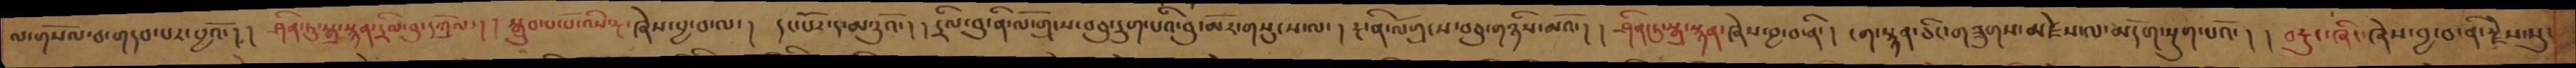ལ་གསོལ་བ་གདབ་པར་བྱའོ་། །ཤིན་ཏུ་སྒྲ་སྙན་དྲིལ་བུ་དཀྲོལ་། །སྒྲུབ་པ་པོ་འིས་རྔ་ཞེས་བྱ་བ་ལ་ ། དང་པོར་ད་མ་རུའོ་ ། །དྲིལ་བུ་ནི་ལོ་གྲངས་བཅུ་དྲུག་པའི་བུ་མོར་གསུངས་ལ་ ། རྔ་ནི་ལོགྲངས་བཅུ་གཉིས་མའོ་། །ཤིན་ཏུ་སྒྲ་སྙན་ཞེས་བྱ་བ་ནི་། ངག་སྙན་ཅིང་གཟུགས་མཛེས་ལ་མདོག་སྡུག་པའོ་། ། བརྡུང་ཞིང་ཞེས་བྱ་བ་ནི་རྗེས་སུ་
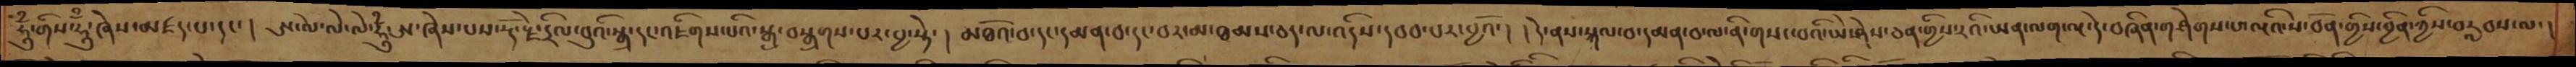ཧཱུྃ་གིས་ཧཱུྃ་ཞེས་མཛད་པ་དང་ ། ཨ་ལེ་ལེ་ལེ་ཧཱུྃ་ཨ་ཞེས་པས་རྡོ་རྗེ་དྲིལ་བུའི་སྒྲ་དང་འཇིགས་པའི་སྒྲ་བསྒྲགས་པར་བྱ་སྟེ་ ། མཐོའ་བ་དང་དམན་བ་དང་བར་མ་ཐམས་ཅད་ལ་འདིས་དབབ་པར་བྱའོ་། །དེ་ནས་སྐལ་བ་དམན་བ་ལ་ནི་གསང་བའི་ཡེ་ཤེས་ཅན་གྱིས་རའི་ཡན་ལག་ལྔ་དེ་བཞིན་གཤེགས་པ་ལྔའི་ས་བོན་གྱིས་བྱིན་གྱིས་བརླབས་ལ་།
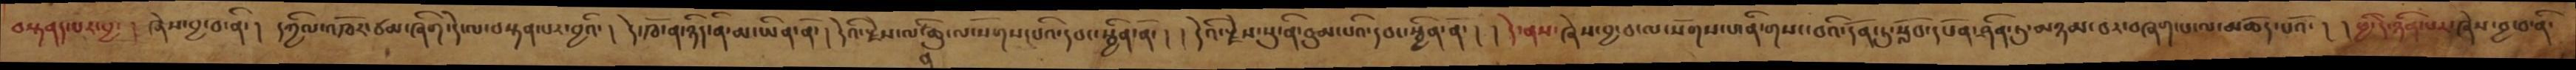བསྟནད་པར་བྱ་ ། ཞེས་བྱ་བ་ནི་ ། དཀྱིལ་འཁོར་ཙམ་ཞིག་དེ་ལ་བསྟན་པར་བྱའི་ ། དེ་ཁོ་ན་ཉིད་ནི་མ་ཡིན་ནོ་ ། དེའི་རྗེས་ལ་ནི་ཆུ་ལ་སོགས་པའི་དབང་སྦྱིན་ནོ་། །དེའི་རྗེས་སུ་ནི་བུམ་པའི་དབང་སྦྱིན་ནོ་། །དེ་ནས་ཞེས་བྱ་བ་ལ་སོགས་པ་ནི་གསང་བའི་དོན་ཏུ་སློབ་དཔོན་ཤིན་ཏུ་མཉམ་བར་བཞག་པ་ལ་མཆོད་པའོ་ ། །ཕྱི་དེ་ཉིན་པར་ཞེས་བྱ་བ་ནི་
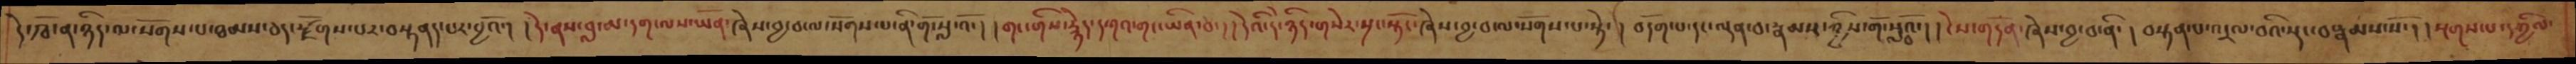དེ་ཁོ་ན་ཉིད་ལ་སོགས་པ་ཐམས་ཅད་རྫོགས་པར་བསྟནད་པར་བྱའོ་། །དེ་ནས་བླ་མ་དག་ལས་ཡོན་ཞེས་བྱ་བ་ལ་སོགས་ནི་གོ་སླ་འོ་། །གང་གིས་རྙེད་དཀའ་གང་ཡིན་བ་། །དེའི་དེ་ཉིད་གསེར་སྲང་སྟོང་ཞེས་བྱ་བ་ལ་སོགས་པ་སྟེ་། བདོག་པ་དང་ལྡན་བ་རྣམས་ཀྱིས་གོ་སླ་བའོ་། །ངེས་གདོན་ཞེས་བྱ་བ་ནི་། བསྟན་པ་འདྲལ་བའི་སྡང་བསྣམས་སོ་། །སྔགས་པ་དཀྱིལ་
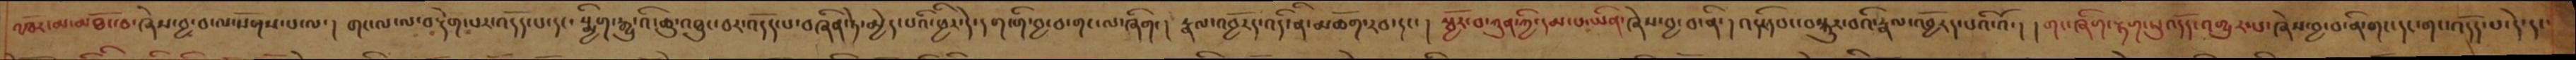འཁོར་མ་མཐོང་བ་ཞེས་བྱ་བ་ལ་སོགས་པ་ལ་། གང་ལ་ལ་བརྡེག་པར་འདོད་པ་དང་སྨྱིག་རྒྱུ་འི་ཆུ་འཐུང་བར་འདོད་པ་བཞིན་ཏེ་མྱེད་པའི་ཕྱིར་དེ་དག་གི་བྱ་བ་གང་ལ་ཞིག་། རྣལ་འབྱོརད་འདི་ནི་མཆོག་རབ་དང་། སྦྱོར་བ་ཀུན་ཀྱི་དམ་པ་ཡིན་ཞེས་བྱ་བ་ནི་། འདིར་དབང་བསྐུར་བའི་རྣལ་འབྱོརད་པའི་འོ་། །གང་ཞིག་རྟག་སུ་འདོད་འགྱུར་པ་ཞེས་བྱ་བ་ནི་གང་དང་གང་འདོད་པ་དེ་དང་
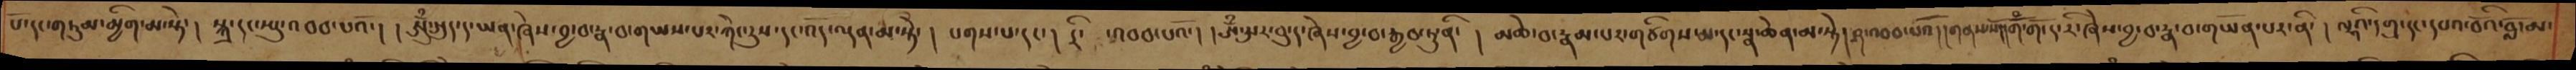པོ་དང་གཏུམ་མྱིག་མ་སྟེ་། སྐྲ་དང་སྤུ་འབབ་པའོ་།  ཨོུྃ་སྲུད་ད་ཡན་ཞེས་བྱ་བ་རྣ་བ་གཡས་པར་ཀེང་རུས་དང་འོད་ལྡན་མ་སྟེ་། པགས་པ་དང་། རི་  ་འབབ་པའོ་། ཨོཾ་དུ་ར་བུ་ད་ཞེས་བྱ་རྒྱབ་ཏུ་ནི་ ། མཆེ་བ་རྣམ་པར་གཙིགས་པདང་སྣ་ཆེན་མ་སྟེ། ཤ་འབབ་པའོ་།།གནས་སོ།།གོྃ་གོ་ད་རི་ཞེས་བྱ་བ་རྣ་བ་གཡོན་པར་ནི་།  ལྷའི་དགུ་དང་དཔའ་བོའི་བློ་མ་
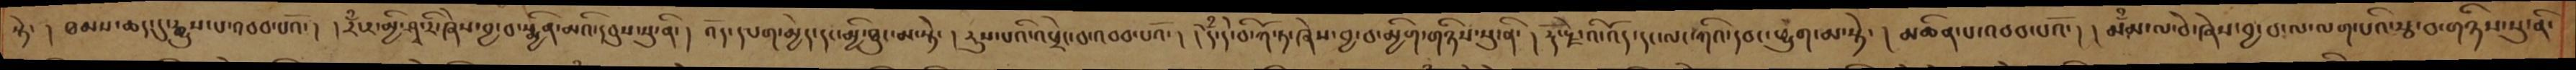སྟེ་ ། ཐམས་ཆདདདུ་རྒྱུས་པ་འབབ་པའོ་། །རྃ་ར་མྱི་ཤྭ་རི་ཞེས་བྱ་བ་སྨྱིན་མའི་དབུས་སུ་ནི་། འོད་དཔག་མྱེད་དང་མྱི་ཐུང་མ་སྟེ་།  རུས་པའི་འཕྲེང་བ་འབབ་པའོ་། ། དོྃ་དེ་བི་ཀོ་ཏ་ཞེས་བྱ་བ་མྱིག་གཉིས་སུ་ནི་། རྡོ་རྗེ་འི་འོད་དང་ལང་ཀའི་དབང་ཕྱུག་མ་སྟེ་ །མཆིན་པ་འབབ་པའོ་། །མྃམ་ལ་ཅེ་ཞེས་བྱ་བ་ལ་ལག་པའི་རྩ་བ་གཉིས་སུ་ནི་
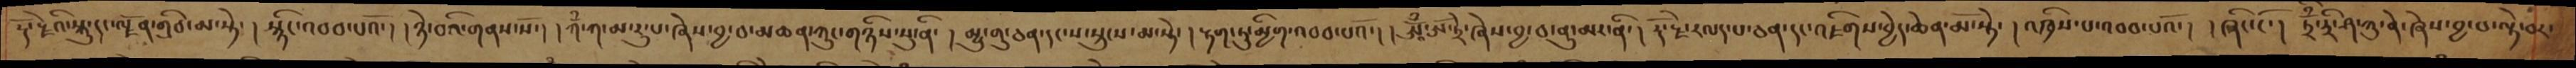རྡོ་རྗེའི་སྐུ་དང་ལྗོན་གྲིབ་མ་སྟེ་། སྙིང་འབབ་པའོ་། །ཉེ་བའི་གནས་སོ་། །ཀྃ་ཀ་མ་རུ་པ་ཞེས་བྱ་བ་མཆན་ཀུང་གཉིས་སུ་ནི་། མྱུ་གུ་ཅན་དང་ས་སྟུངས་མ་སྟེ་། རྟག་ཏུ་མྱིག་འབབ་པའོ་། །ཨཱོྃ་ཨོ་ཏྲེ་ཞེས་བྱ་བ་ནུ་མར་ནི་། །རྡོ་རྗེ་རལད་པ་ཅན་དང་འཇིགས་བྱེད་ཆེན་མོ་སྟེ་། འཁྲིས་པ་འབབ་པའོ་། །ཞིང་ངོ་། ཏྲྃ་ཏྲི་ཤ་ཀུ་ནེ་ཞེས་བྱ་བ་ལྟེ་བར་
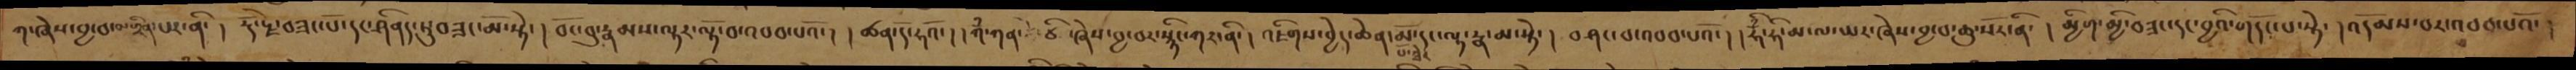ཀ་ཞེས་བྱ་བ་མགྲིན་པར་ནི་། རྡོ་རྗེ་བཟང་པོ་དང་ཤིནད་ཏུ་བཟང་མོ་སྟེ་། བོང་བུ་རྣམས་ལྟར་ལྟོ་བ་འབབ་པའོ་། །ཚན་དོ་ཧའོ་། ཀྃ་ཀན་ཙི་ཞེས་བྱ་བར་སྙིང་ཀར་ནི་། འཇིགས་བྱེད་ཆེན་མོ་དང་ལྷ་རྣ་མ་སྟེ་། བཤང་བ་འབབ་པའོ་། །ཧོྃ་ཧི་མ་ལ་ཡར་ཞེས་བྱ་བ་ཆུ་སོར་ནི་། མྱིག་མྱི་བཟང་དང་བྱའི་གདོང་པ་སྟེ་། འདོམས་བར་འབབ་པའོ་།
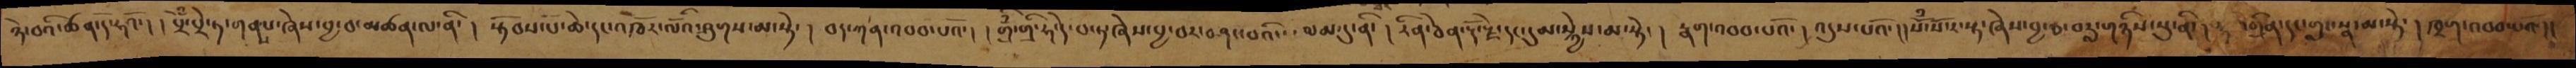ཉེ་བའི་ཚན་དེ་ཧའོ་ ། །པྲོྃ་པྲེ་ཏ་གནས་ཞེས་བྱ་བ་མཚན་ལ་ནི་ ། སྟོབས་པོ་ཆེ་དང་འཁོར་ལོའི་ཤུགས་མ་སྟེ་ ། བད་ཀན་འབབ་པའོ་། །གྲྃ་གྲི་ཧ་དེ་བ་ཏ་ཞེས་བྱ་བར་བཤང་བའི་ལམ་དུ་ནི་ ། རིན་ཅེན་རྡོ་རྗེ་དང་དུམ་སྐྱེས་མ་སྟེ་ ། རྣག་འབབ་པའོ་། འདུས་པའོ་།། སོྃ་སོ་ར་སྟ་ཞེས་བྱ་བ་བརླ་གཉིས་སུ་ནི་། རྟ་མགྲིན་དང་གླང་སྣ་མ་སྟེ་ ། ཁྲག་འབབ་པའོ་།།
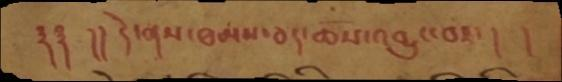࿑࿑  །། དེ་ནས་ཐམས་ཅད་ཆོས་འབྱུང་བར་། །
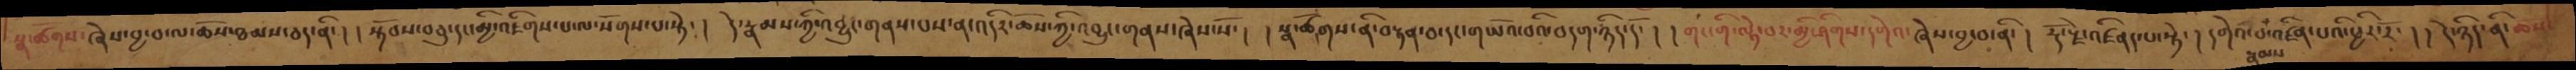སྣ་ཚོགས་ཞེས་བྱ་བ་ལ་ཆོས་ཐམས་ཅད་ནི་ ། །སྟོབས་བཅུ་དང་མྱི་འཇིག་པ་ལ་སོགས་པ་སྟེ་ ། དེ་རྣམས་ཀྱི་འབྱུང་གནས་པས་ན་འདིར་ཆོས་ཀྱི་འབྱུང་གནས་ཞེས་སོ་། །སྣ་ཚོགས་ནི་བསྟན་བ་དང་གཡོའ་བའི་བདག་ཉིད་དོ་ ། །གང་གི་ལྟེ་བར་མྱི་ཤིགས་དགེའ་ཞེས་བྱ་བ་ནི་ ། རྡོ་རྗེ་འཛིནད་པ་སྟེ་ ། དགེའ་བ་རྣམས་འཛིན་པའི་ཕྱིར་རོ་ ། །དེ་ཉིད་ནི་ཆོས་
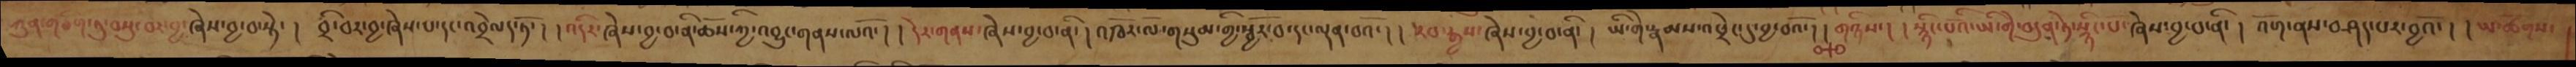ཀུན་གཅིག་ཏུ་བསྡུ་བར་བྱ་ཞེས་བྱ་བ་སྟེ་ ། བྲི་བར་བྱ་ཞེས་པ་དང་འབྲེལད་ཏོ་ ། །འདིར་ཞེས་བྱ་བ་ནི་ཆོས་ཀྱི་འབྱུང་གནས་ལའོ་ ། །དེར་གནས་ཞེས་བྱ་བ་ནི་ །་འཁོར་ལོ་གསུམ་གྱི་སྦྱོར་བ་དང་ལྡན་བའོ་། །རབ་རྒྱས་ཞེས་བྱ་བ་ནི་ ། ཡི་གེ་རྣམས་འཕྲེང་དུ་བྱ་བའོ་། །གཉིས། །སྙིང་པོའི་ཡི་གེ་བདུན་ཏེ་སྙིང་པོ་ཞེས་བྱ་བ་ནི་ ། འོག་ནས་བཤད་པར་བྱའོ་ ། །ཡ་ཚོགས་
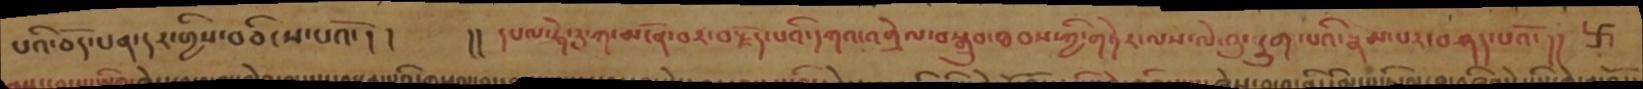པའི་ཅོད་པན་དར་གྱིས་བཅིངས་པའོ་ །།   །། དཔལ་ཧེ་རུ་ཀ་མངོན་བར་བརྗོད་པའི་དཀའ་འགྲེལ་བསྒྲུབ་ཐབས་ཀྱི་གཏེར་ལས་ལེ་འུ་དྲུག་པའི་རྣམ་པར་བཤད་པའོ་།།
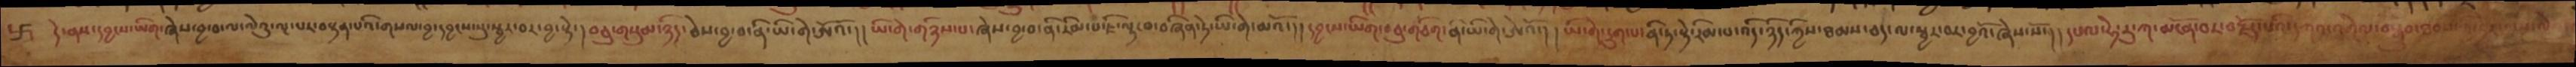དེ་ནས་དབྱངས་ཡིག་ཞེས་བྱ་བ་ལ་ལེའུ་ལྔ་པར་བསྟན་པའི་གསལ་བྱ་དབྱངས་སུ་སྦྱར་བར་བྱ་སྟེ་། བཅུ་གསུམ་ཉིད་ཅེས་བྱ་བ་ནི་ཡི་གེ་ཨོའོ་།། ཡི་གེ་གཉིས་པ་ཞེས་བྱ་བ་ནི་རིམ་པ་ཇི་ལྟ་བ་བཞིན་ཏེ་ཡི་གེ་མའོ་།། དབྱངས་ཡིག་བཅུ་གཅིག་ནི་ཡི་གེ་ཨེའོ་། །ཡི་གེ་དྲུག་པ་ནི་ཏ་སྟེ་རིམ་པ་འདི་ཉིད་ཀྱིས་ཐམས་ཅད་ལ་སྦྱར་བར་བྱའོ་ཞེས་སོ་། །དཔལ་ཧེ་རུ་ཀ་མངོན་བར་བརྗོད་པའི་དཀའ་འགྲེལ་བསྒྲུབ་ཐབས་
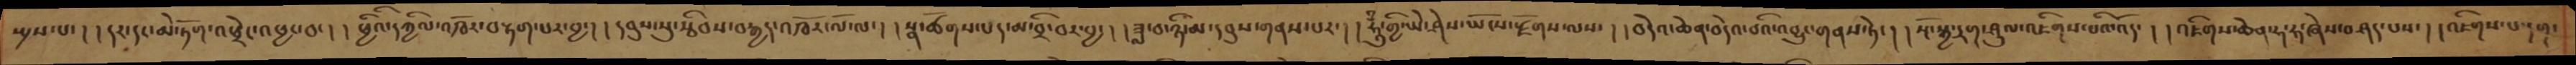སྤྲས་པ་། །དར་དང་མེ་ཏོག་འཕྲེང་འཕྱང་བ་། །ཕྱིའི་དཀྱིལ་འཁོར་བརྟག་པར་བྱ་། །དབུས་སུ་རྩིབས་བརྒྱད་འཁོར་ལོ་ལ་། །སྣ་ཚོགས་པད་མ་བྲི་བར་བྱ་། །ཟླ་བ་ཉི་མ་དབུས་གནས་པར་། །ཧཱུྃ་གྱི་ཡེ་ཤེས་ཡོངས་རྫོགས་ལས་། །བདེའ་ཆེན་བདེའ་བའི་འབྱུང་གནས་ཏེ་། །སྔོ་སྐྱ་དྲག་ཤུལ་འཇིགས་པའི་འོད་། །འཇིགས་ཆེན་ཧ་ཧ་ཞེས་བཤད་པས་། །འཇིགས་པ་དག་
